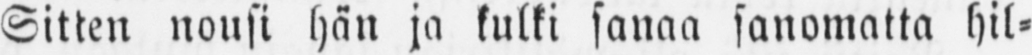Sitten nousi hän ja kulki sanaa sanomatta hil-
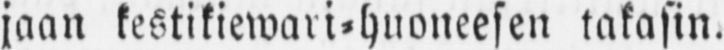jaan kestikiewari-huoneesen takasin.
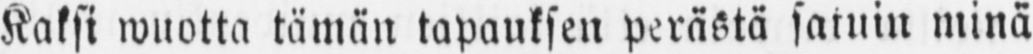Kaksi wuotta tämän tapauksen perästä satuin minä
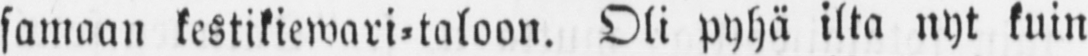samaan kestikiewari-taloon. Oli pyhä ilta nyt kuin
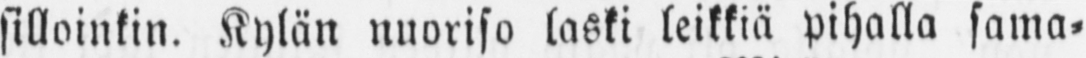silkoinkin. Kylän nuoriso laski leikkiä pihalla sama-
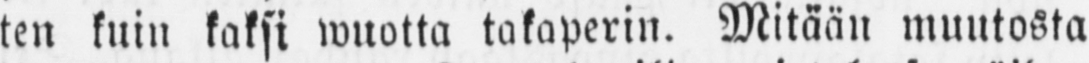ten kuin kaksi wuotta takaperin. Mitään muutosta
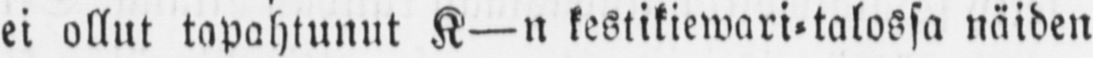ei ollut tapahtunut K—n kestikiewari-talossa näiden
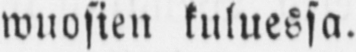wuosien kuluessa.
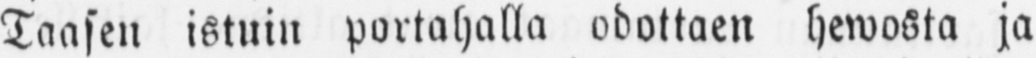Taasen istuin portahalla odottaen hewosta ja
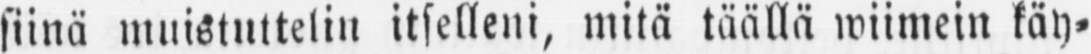siinä muistuttelin itselleni, mitä täällä wiimein käy-
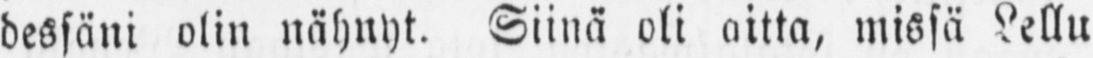dessäni olin nähnyt. Siinä oli oitta, missä Lellu
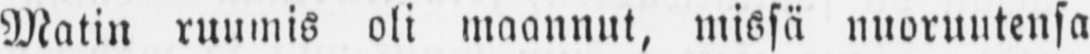Matin ruumis oli maannut, missä nuoruutensa
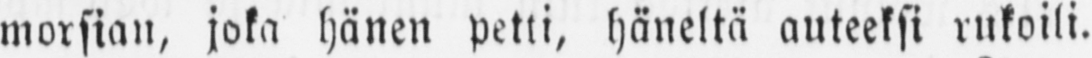morsian, joka hänen petti, häneltä auteeksi rukoili.
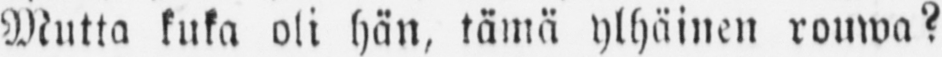Mutta kuka oli hän, tämä ylhäinen rouwa?
